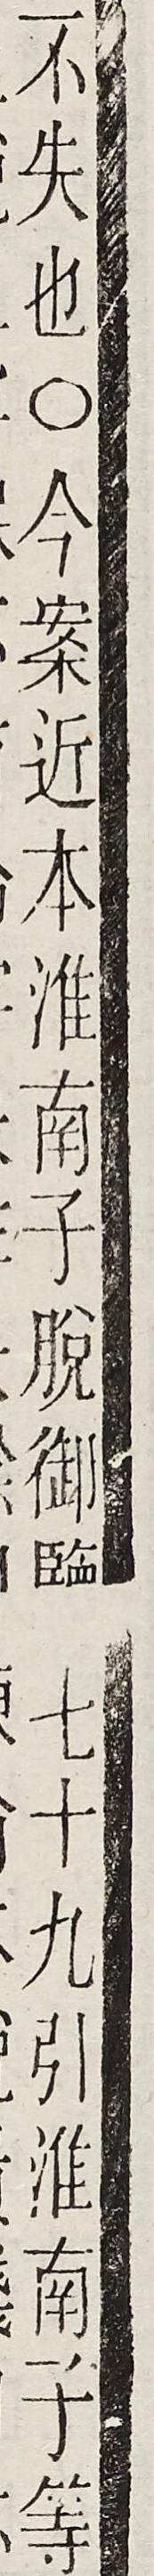不失也○今案近本淮南子脫御覽七十九引淮南子等
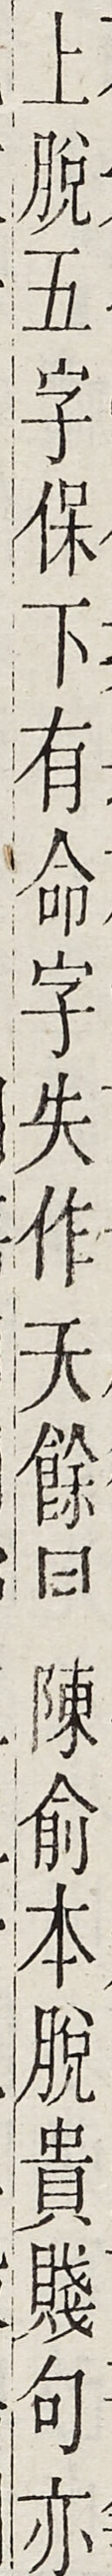上脫五字保下有命字失作天餘同陳俞本脫貴賤句亦
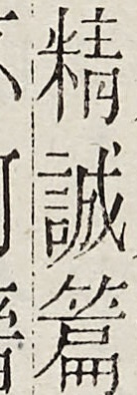精誠篇
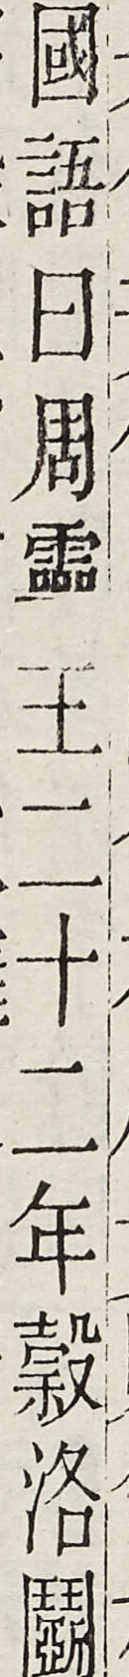國語曰周靈王二十二年穀洛鬬
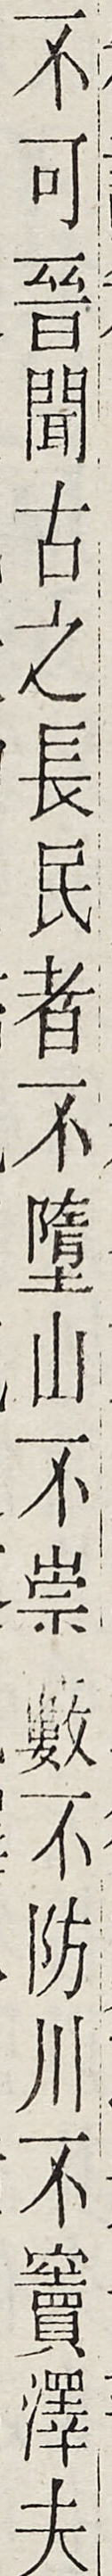不可晉弭古之長民者不墮山不崇藪不防□不竇澤夫
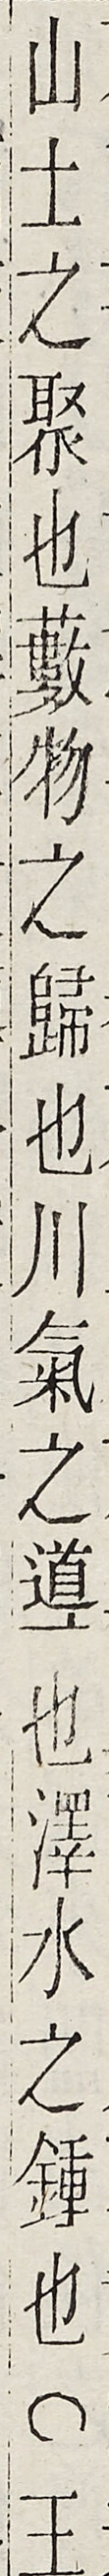山土之聚也藪物之歸也川氣之導也澤水之鐘也○王
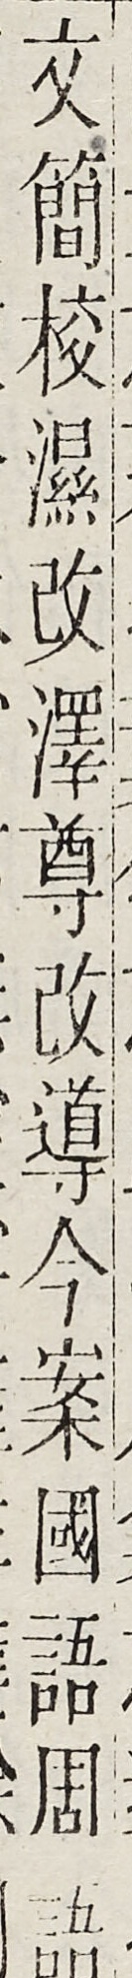文簡校濕改澤尊改導今案國語周語
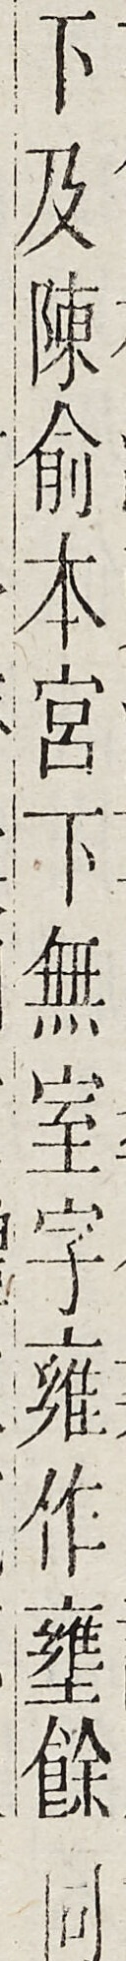下及陳俞本宮下無室字雍作壅餘同
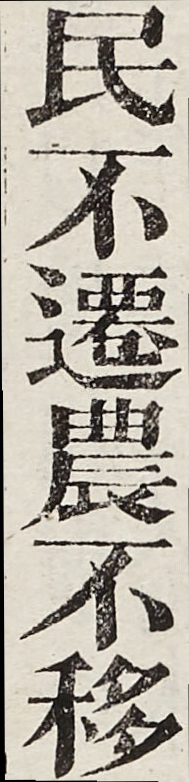民不遷農不移
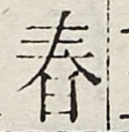春
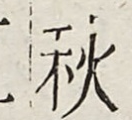秋
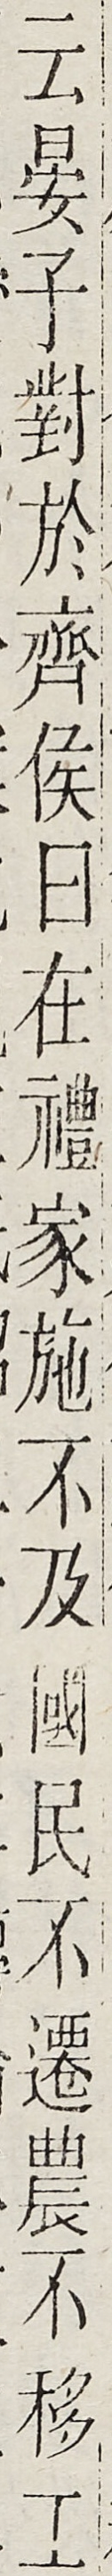雲晏子對於齊侯曰在禮家施不及國民不遷農不移工
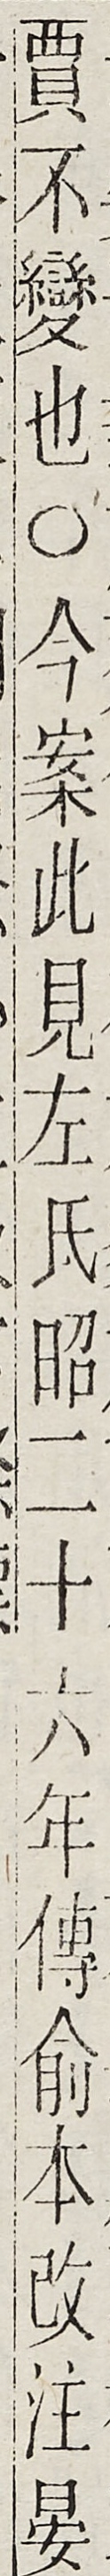賈不變也○今案此見左氏昭二十六年傳俞本改注晏
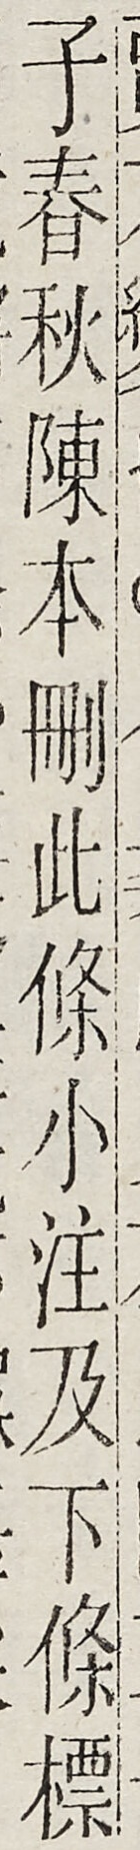子春秋陳本刪此條小注及下條標
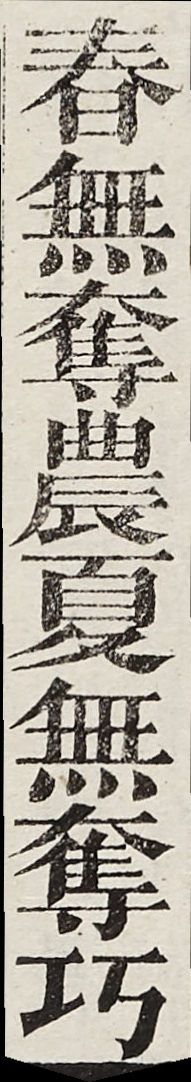春無奪農夏無奪巧
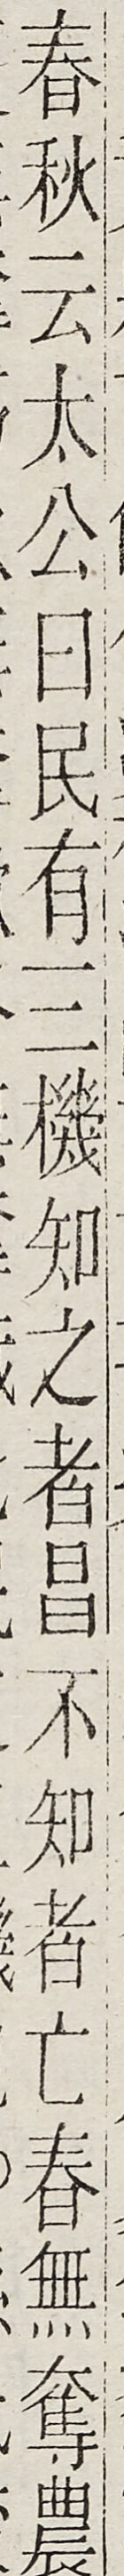春秋雲太公曰民有三機知之者昌不知者亡春無奪農
